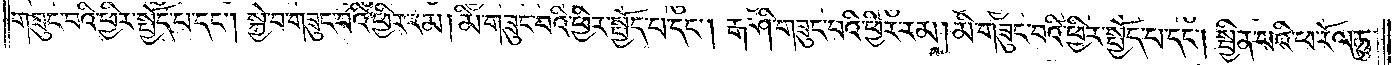གཟུང་བའི་ཕྱིར་སྤྱོད་པ་དང༌། སྐྱེ་བ་གཟུང་བའི་ཕྱིར་རམ། མི་གཟུང་བའི་ཕྱིར་སྤྱོད་པ་དང༌། རྒ་ཤི་གཟུང་བའི་ཕྱིར་རམ། མི་གཟུང་བའི་ཕྱིར་སྤྱོད་པ་དང༌། སྦྱིན་པའི་ཕ་རོལ་ཏུ་
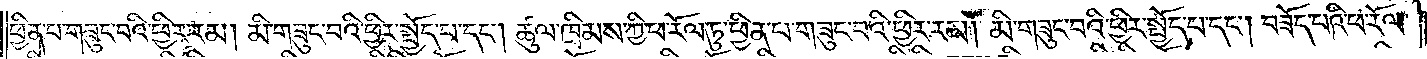ཕྱིན་པ་གཟུང་བའི་ཕྱིར་རམ། མི་གཟུང་བའི་ཕྱིར་སྤྱོད་པ་དང༌། ཚུལ་ཁྲིམས་ཀྱི་ཕ་རོལ་ཏུ་ཕྱིན་པ་གཟུང་བའི་ཕྱིར་རམ། མི་གཟུང་བའི་ཕྱིར་སྤྱོད་པ་དང༌། བཟོད་པའི་ཕ་རོལ་
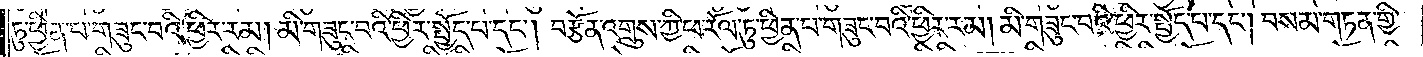ཏུ་ཕྱིན་པ་གཟུང་བའི་ཕྱིར་རམ། མི་གཟུང་བའི་ཕྱིར་སྤྱོད་པ་དང༌། བརྩོན་འགྲུས་ཀྱི་ཕ་རོལ་ཏུ་ཕྱིན་པ་གཟུང་བའི་ཕྱིར་རམ། མི་གཟུང་བའི་ཕྱིར་སྤྱོད་པ་དང༌། བསམ་གཏན་གྱི་
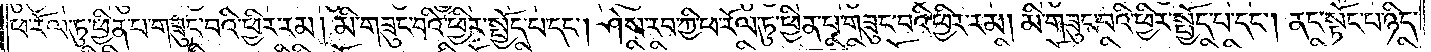ཕ་རོལ་ཏུ་ཕྱིན་པ་གཟུང་བའི་ཕྱིར་རམ། མི་གཟུང་བའི་ཕྱིར་སྤྱོད་པ་དང༌། ཤེས་རབ་ཀྱི་ཕ་རོལ་ཏུ་ཕྱིན་པ་གཟུང་བའི་ཕྱིར་རམ། མི་གཟུང་བའི་ཕྱིར་སྤྱོད་པ་དང༌། ནང་སྟོང་པ་ཉིད་
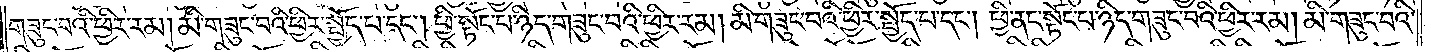གཟུང་བའི་ཕྱིར་རམ། མི་གཟུང་བའི་ཕྱིར་སྤྱོད་པ་དང༌། ཕྱི་སྟོང་པ་ཉིད་གཟུང་བའི་ཕྱིར་རམ། མི་གཟུང་བའི་ཕྱིར་སྤྱོད་པ་དང༌། ཕྱི་ནང་སྟོང་པ་ཉིད་གཟུང་བའི་ཕྱིར་རམ། མི་གཟུང་བའི་
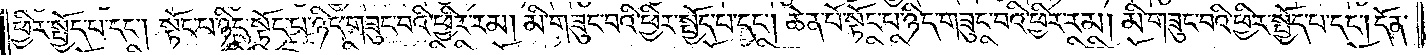ཕྱིར་སྤྱོད་པ་དང༌། སྟོང་པ་ཉིད་སྟོང་པ་ཉིད་གཟུང་བའི་ཕྱིར་རམ། མི་གཟུང་བའི་ཕྱིར་སྤྱོད་པ་དང༌། ཆེན་པོ་སྟོང་པ་ཉིད་གཟུང་བའི་ཕྱིར་རམ། མི་གཟུང་བའི་ཕྱིར་སྤྱོད་པ་དང༌། དོན་
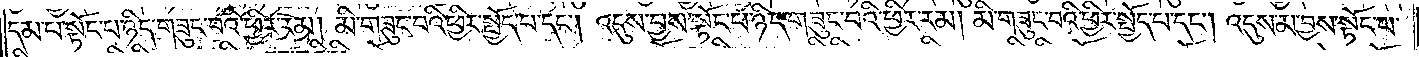དམ་པ་སྟོང་པ་ཉིད་གཟུང་བའི་ཕྱིར་རམ། མི་གཟུང་བའི་ཕྱིར་སྤྱོད་པ་དང༌། འདུས་བྱས་སྟོང་པ་ཉིད་གཟུང་བའི་ཕྱིར་རམ། མི་གཟུང་བའི་ཕྱིར་སྤྱོད་པ་དང༌། འདུས་མ་བྱས་སྟོང་པ་
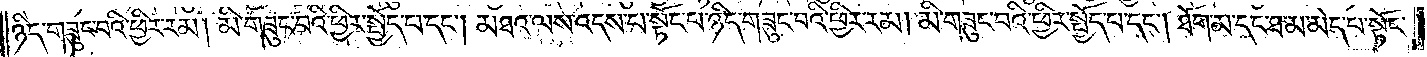ཉིད་གཟུང་བའི་ཕྱིར་རམ། མི་གཟུང་བའི་ཕྱིར་སྤྱོད་པ་དང༌། མཐའ་ལས་འདས་པ་སྟོང་པ་ཉིད་གཟུང་བའི་ཕྱིར་རམ། མི་གཟུང་བའི་ཕྱིར་སྤྱོད་པ་དང༌། ཐོག་མ་དང་ཐ་མ་མེད་པ་སྟོང་
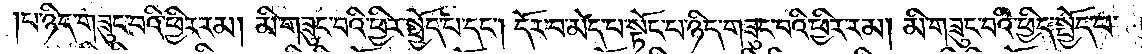པ་ཉིད་གཟུང་བའི་ཕྱིར་རམ། མི་གཟུང་བའི་ཕྱིར་སྤྱོད་པ་དང༌། དོར་བ་མེད་པ་སྟོང་པ་ཉིད་གཟུང་བའི་ཕྱིར་རམ། མི་གཟུང་བའི་ཕྱིར་སྤྱོད་པ་
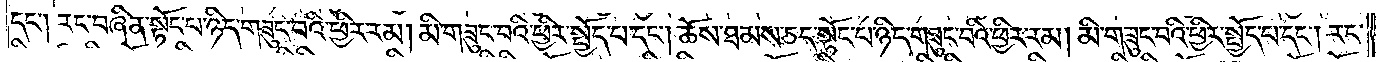དང༌། རང་བཞིན་སྟོང་པ་ཉིད་གཟུང་བའི་ཕྱིར་རམ། མི་གཟུང་བའི་ཕྱིར་སྤྱོད་པ་དང༌། ཆོས་ཐམས་ཅད་སྟོང་པ་ཉིད་གཟུང་བའི་ཕྱིར་རམ། མི་གཟུང་བའི་ཕྱིར་སྤྱོད་པ་དང༌། རང་
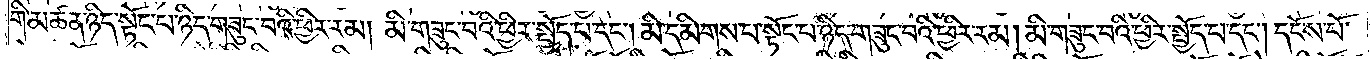གི་མཚན་ཉིད་སྟོང་པ་ཉིད་གཟུང་བའི་ཕྱིར་རམ། མི་གཟུང་བའི་ཕྱིར་སྤྱོད་པ་དང༌། མི་དམིགས་པ་སྟོང་པ་ཉིད་གཟུང་བའི་ཕྱིར་རམ། མི་གཟུང་བའི་ཕྱིར་སྤྱོད་པ་དང༌། དངོས་པོ་
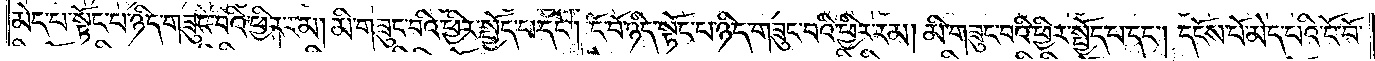མེད་པ་སྟོང་པ་ཉིད་གཟུང་བའི་ཕྱིར་རམ། མི་གཟུང་བའི་ཕྱིར་སྤྱོད་པ་དང༌། ངོ་བོ་ཉིད་སྟོང་པ་ཉིད་གཟུང་བའི་ཕྱིར་རམ། མི་གཟུང་བའི་ཕྱིར་སྤྱོད་པ་དང༌། དངོས་པོ་མེད་པའི་ངོ་བོ་
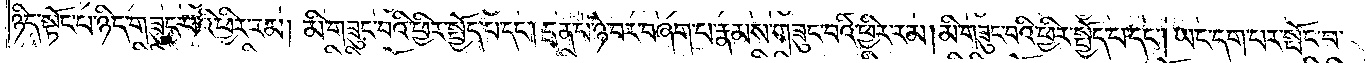ཉིད་སྟོང་པ་ཉིད་གཟུང་བའི་ཕྱིར་རམ། མི་གཟུང་བའི་ཕྱིར་སྤྱོད་པ་དང༌། དྲན་པ་ཉེ་བར་བཞག་པ་རྣམས་གཟུང་བའི་ཕྱིར་རམ། མི་གཟུང་བའི་ཕྱིར་སྤྱོད་པ་དང༌། ཡང་དག་པར་སྤོང་བ་
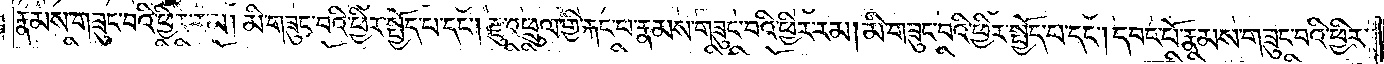རྣམས་གཟུང་བའི་ཕྱིར་རམ། མི་གཟུང་བའི་ཕྱིར་སྤྱོད་པ་དང༌། རྫུ་འཕྲུལ་གྱི་རྐང་པ་རྣམས་གཟུང་བའི་ཕྱིར་རམ། མི་གཟུང་བའི་ཕྱིར་སྤྱོད་པ་དང༌། དབང་པོ་རྣམས་གཟུང་བའི་ཕྱིར་
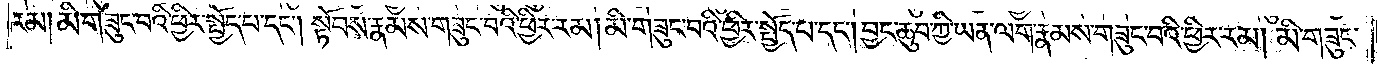རམ། མི་གཟུང་བའི་ཕྱིར་སྤྱོད་པ་དང༌། སྟོབས་རྣམས་གཟུང་བའི་ཕྱིར་རམ། མི་གཟུང་བའི་ཕྱིར་སྤྱོད་པ་དང༌། བྱང་ཆུབ་ཀྱི་ཡན་ལག་རྣམས་གཟུང་བའི་ཕྱིར་རམ། མི་གཟུང་
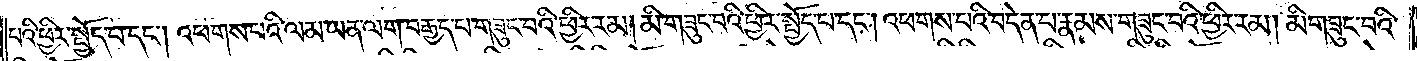བའི་ཕྱིར་སྤྱོད་པ་དང༌། འཕགས་པའི་ལམ་ཡན་ལག་བརྒྱད་པ་གཟུང་བའི་ཕྱིར་རམ། མི་གཟུང་བའི་ཕྱིར་སྤྱོད་པ་དང༌། འཕགས་པའི་བདེན་པ་རྣམས་གཟུང་བའི་ཕྱིར་རམ། མི་གཟུང་བའི་
